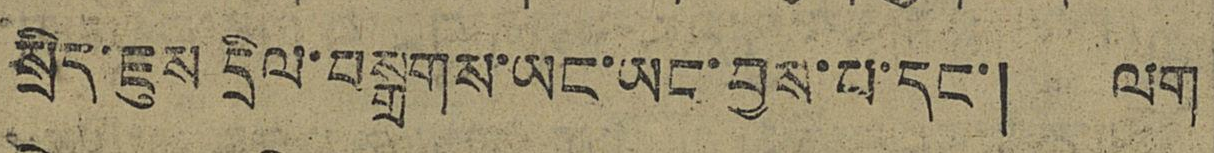སྲིད་ཇུས དྲིལ་བསྒྲགས་ཡང་ཡང་བྱས་པ་དང་། ལག
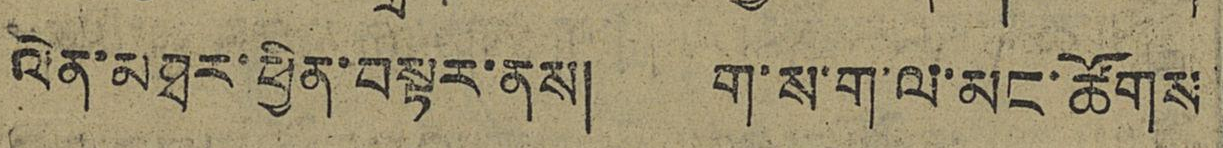ལེན་མཐར་ཕྱིན་བསྟར་ནས། ག་ས་ག་ལ་མང་ཚོགས
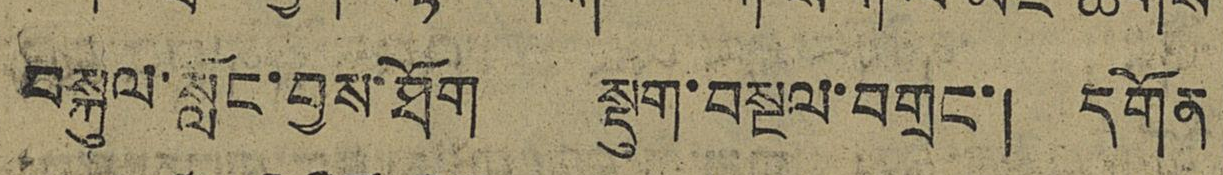བསྐུལ་སླང་བྱས་ཐོག སྡུག་བསྔལ་བགྲང་། དགོན
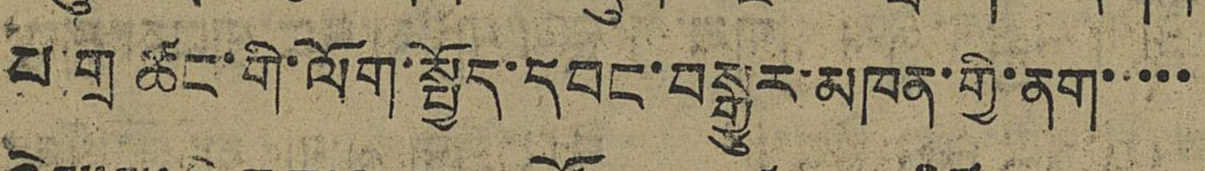པ་གྲ ཚང་གི་ལོག་སྤྱོད་དབང་བསྒྱུར་མཁན་གྱི་ནག་་་་
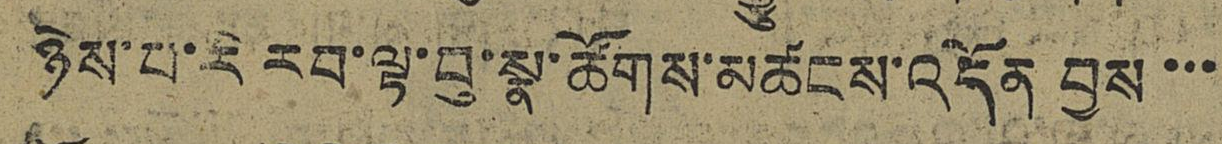ཉེས་པ་རེ རབ་ལྟ་བུ་སྣ་ཚོགས་མཚངས་འདོན བྱས་་་
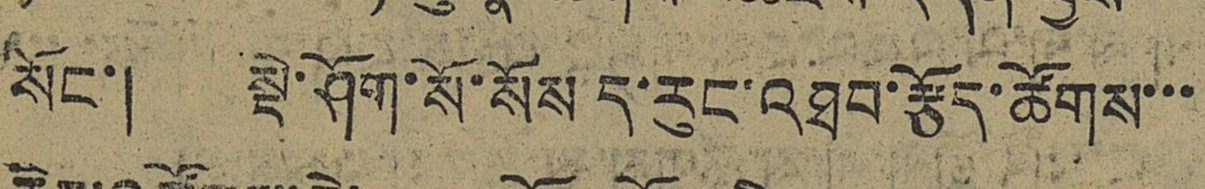སོང་། སྡེ་ཤོག་སོ་སོས་ད་རུང་འཐབ་རྩོད་ཚོགས་་
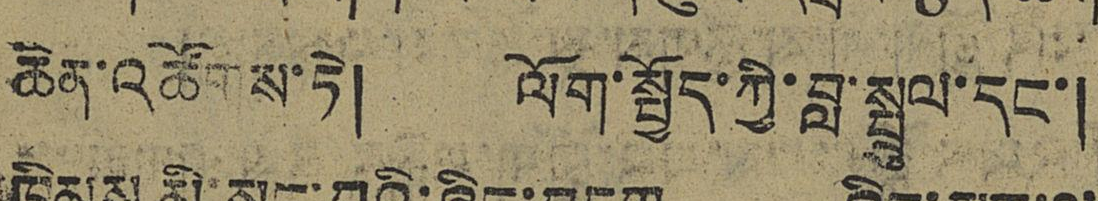ཆེན་འཚོགས་ཏེ། ལོག་སྤྱོད་ཀྱི་ཟླ་སྤྲུལ་དང་།
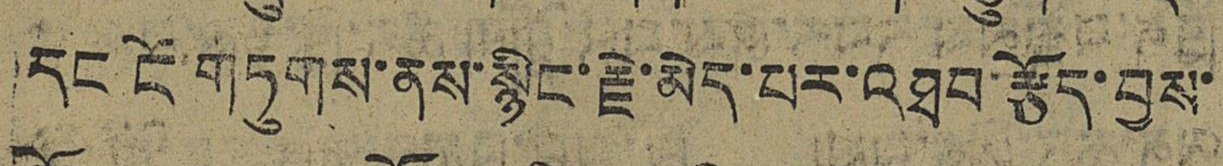དང ངོ་གཏུགས་ནས་སྙིང་རྗེ་མེད་པར་འཐབ་རྩོད་བྱས་
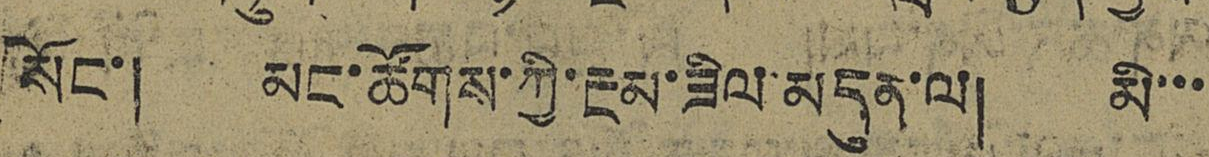སོང་། མང་ཚོགས་ཀྱི་རྔམ་ཟིལ་མདུན་ལ། མི་་་
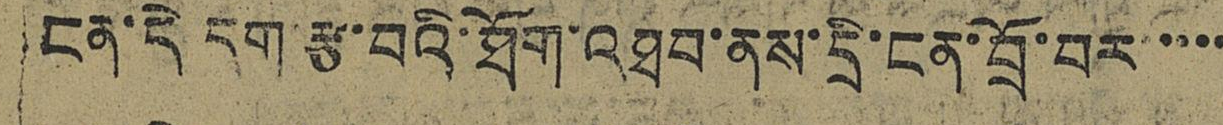ངན་དེ དག་རྩ་བའི་ཐོག་འཐབ་ནས་དྲི་ངན་བྲོ་བར་་་་་
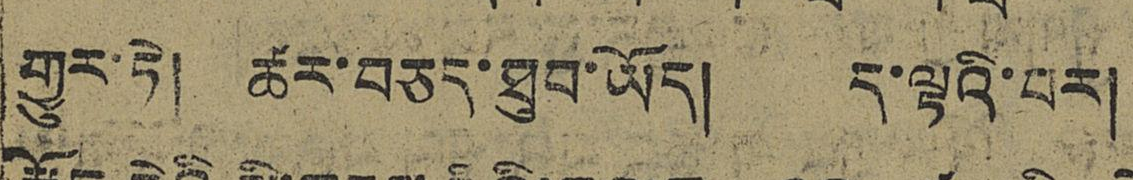གྱུར་ཏེ། ཚར་བཅད་ཐུབ་ཡོད། ད་ལྟའི་བར།
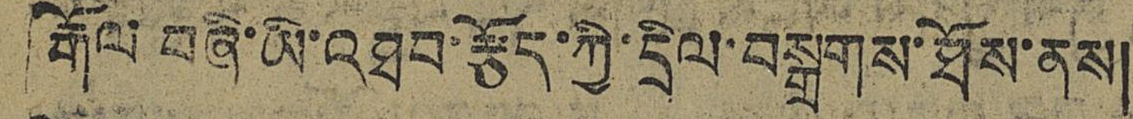རྒོལ་བཞི་ཡི་འཐབ་རྩོད་ཀྱི་དྲིལ་བསྒྲགས་ཐོས་ནས།
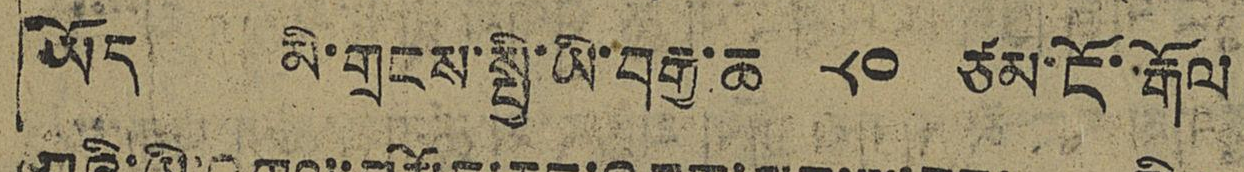ཡོད། མི་གྲངས་སྤྱི་ཡི་བརྒྱ་ཆ ༨༠ ཙམ་ངོ་རྒོལ
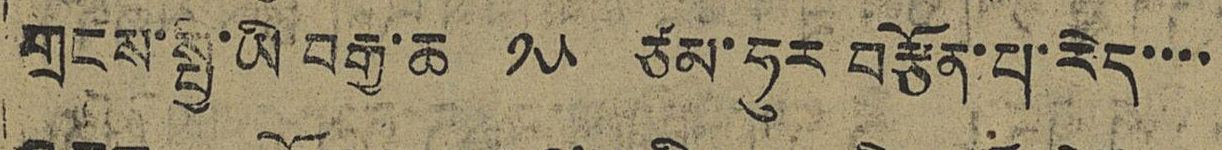གྲངས་སྤྱི་ཡི་བརྒྱ་ཆ ༡༥ ཙམ་ཧུར་བརྩོན་པ་རེད་་་་
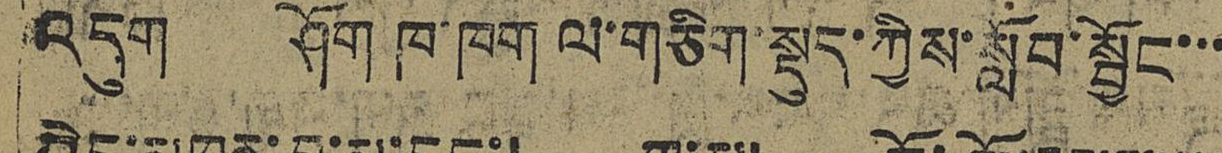འདུག ཤོག་ཁ་ཁག ལ་གཅིག་སྡུད་ཀྱིས་སློབ་སྦྱོང་་་
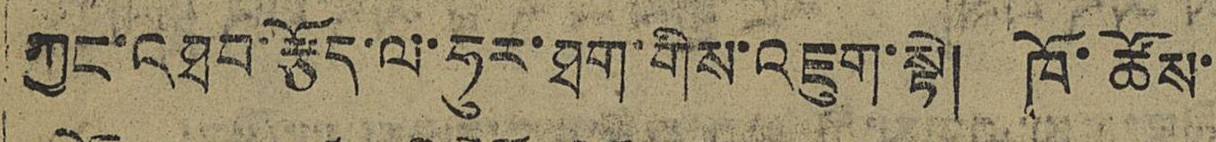ཀྱང་འཐབ་རྩོད་ལ་ཧུར་ཐག་གིས་འཇུག་སྟེ། ཁོ་ཚོས་
